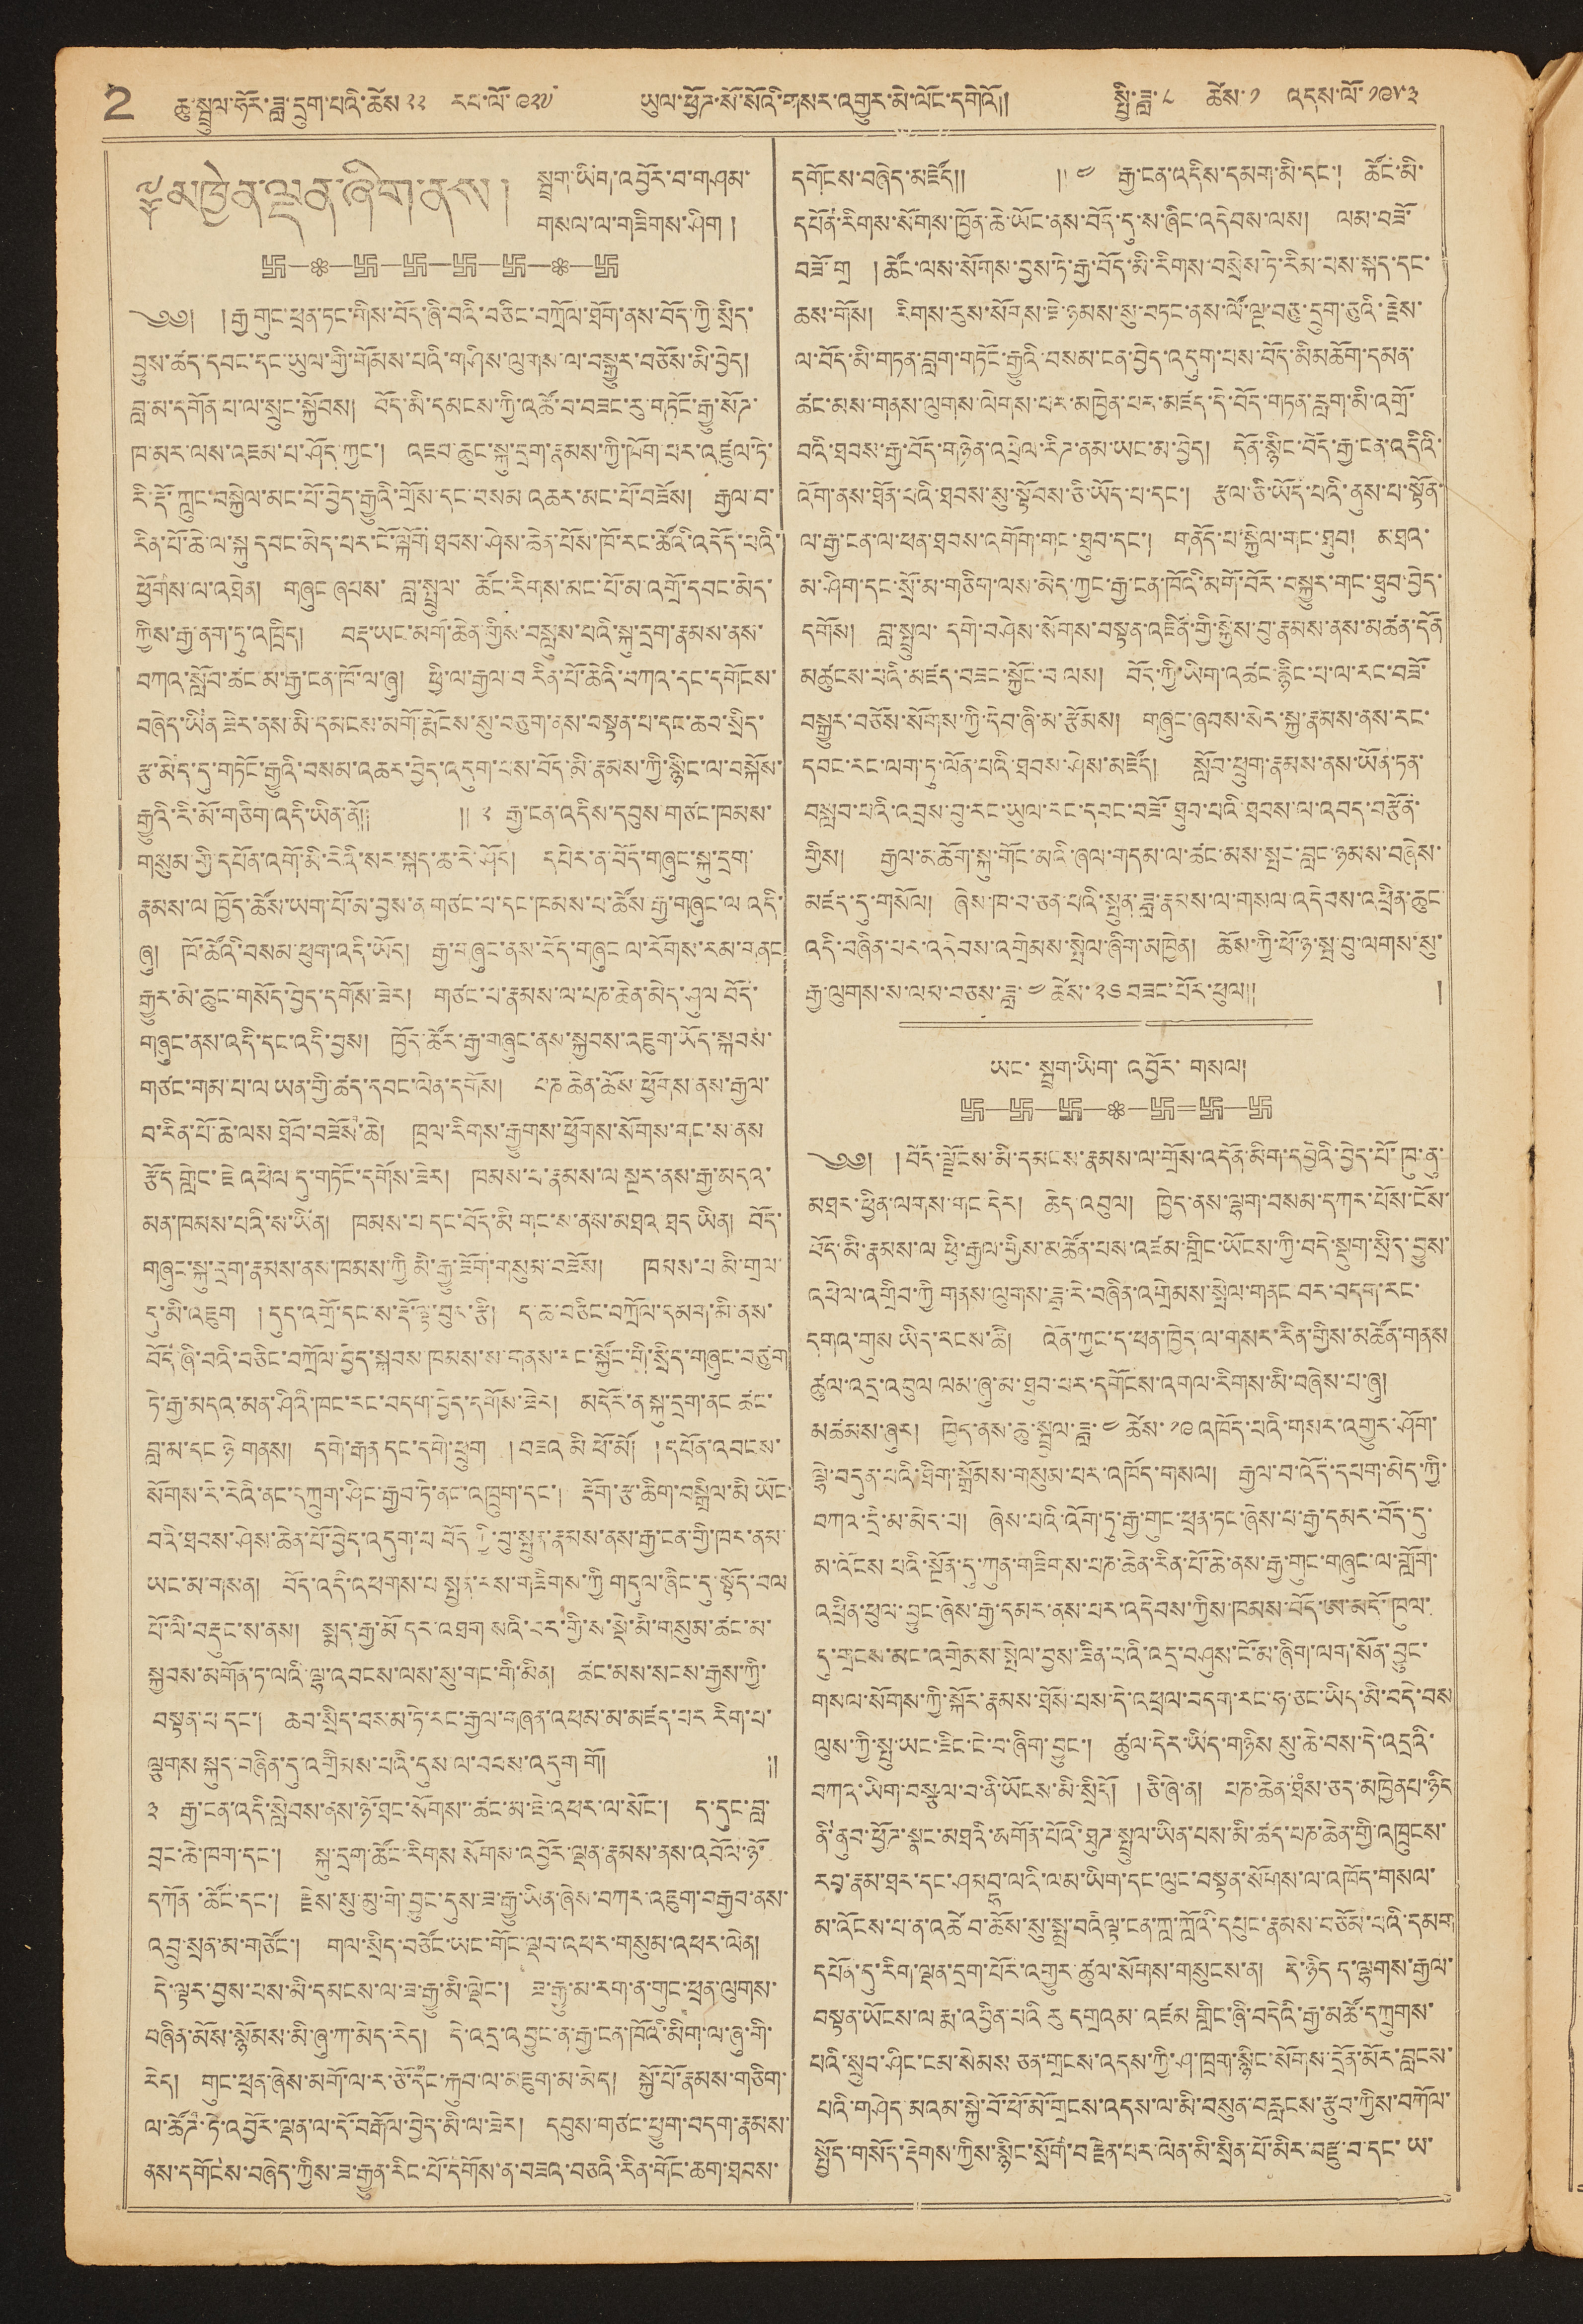2 ཆུ་སྤྲུལ་ཧོར་ཟླ་དྲུག་པའི་ཚེས་ ༢༢ རབ་ལོ་ ༩༢༧ ཡུལ་ཕྱོགས་སོ་སོའི་གསར་འགྱུར་མེ་ལོང་དགེའོ།། སྤྱི་ཟླ་༨ ཚེས་༡ འདས་ལོ་ ༡༩༥༣
༈ མཁྱེན་ལྡན་ཞིག་ནས།
སྦྲག་ཡིག་འབྱོར་བ་གཤམ་
གསལ་ལ་གཟིགས་ཤིག།།
༄༅།།རྒྱ་གུང་ཕྲན་ཏང་གིས་བོད་ཞི་བའི་བཅིང་བཀྲོལ་ཐོག་ནས་བོད་ཀྱི་སྲིད་
བྱུས་ཚད་དབང་དང་ཡུལ་གྱི་གོམས་པའི་གཤིས་ལུགས་ལ་བསྒྱུར་བཅོས་མི་བྱེད།
བླ་མ་དགོན་པ་ལ་སྲུང་སྐྱོབས། བོད་མི་དམངས་ཀྱི་འཚོ་བ་བཟང་རུ་གཏོང་རྒྱུ་སོཌ་
ཁ་མར་ལས་འཇམ་པ་ཤོད་ཀྱང་། འཇབ་ཆུང་སྐུ་དྲག་རྣམས་ཀྱི་ཁོག་པར་འཛུལ་ཏེ་
རི་རྡོ་ཀླུང་བསྐྱེལ་མང་པོ་བྱེད་རྒྱུའི་གྲོས་དང་བསམ འཆར་མང་པོ་བཟོས། རྒྱལ་བ་
རིན་པོ་ཆེ་ལ་སྐུ དབང་མེད་པའི་ངོ་ལྐོག ཐབས་ཤེས་ཆེན་པོས་ཁོ་རང་ཚོའི་འདོད་པའི་
ཕྱོགས་ལ་འཐེན། གཞུང ཞབས་བླ་སྤྲུལ་ཚོང་རོགས་མང་པོ་མ་འགྲོ་དབང་མེད་
ཀྱིས་རྒྱ་ནག་རུ་འཁྲིད། བརྡ་ཡང་མགོ་ཆེན་གྱིས་བསླུས་པའི་སྐུ་དྲག་རྣམས་ནས་
བཀའ་སློབ་ཚང་མ་རྒྱང་ཁོ་ལ་ཞུ། ཕྱི་ལ་རྒྱལ་བ་རིན་པོ་ཆེའི་བཀའ་དང་དགོངས་
བཞེད་ཡིན ཟེར་ནས་མི་དམངས་མགོ་རྨོངས་སུ་བཅུག་ནས་བསྟན་པ་དང་ཆབ་སྲིད་
རྩ་མེད་དུ་གཏོང་རྒྱུའི་བསམ་འཆར་བྱེད་འདུག་པས་བོད་མི་རྣམས་ཀྱི་སྙིང་ལ་བསྐོས་
རྒྱུའི་རི་མོ་གཅིག་འདི་ཡིན་ནོ།། །།༸རྒྱ་ངན་འདིས་དབུས་གཙང་ཁབས་
གསུམ་གྱི་དཔོན་འགོ་མི་རིའི་སར་སྐད་ཆ་རེ་ཤོར། དཔེར་ན་བོད་གཞུང་སྐུ་དྲག་
རྣམས་ལ ཁྱོད་ཆོས་ཡག་པོ་མ་བྱས་ན་གཙང་པ་དང་ཁམས་པ་ཚོས་རྒྱ་གཞུང་ལ་འདི་
ཞུ། ཁོ་ཚོའི་བསམ་ཕུག་འདི་ཡོད། རྒྱ་གཞུང་ནས་བོད་གཞུང ལ་རོགས་རམ་གནང
རྒྱུར་མེ་ཆུང་གསོད་བྱེད་དགོས་ཟེར། གཙང་པ་རྣམས་ལ་པན་ཆེན་མེད་ཤུལ བོད་
གཞུང་ནས་འདི་དང་འདི་བྱས། ཁྱོད་ཚོར་རྒྱ་གཞུང་ནས་སྐྱབས་འཇུག་ཡོད་སྐབས་
གཙང་གམ་པ་ལ ཡན་གྱི་ཚད་དབང་ལེན་དགོས། པཎ་ཆེན་ཆོས་ཕྱོགས་ནས་རྒྱལ་
བ་རིན་པོ་ཆེ་ལས ཐོབ་བཟོས་ཆེ། ཁྲལ་རིགས་རྒྱུགས་ཕྱོགས་སོགས་གང་ས་ནས་
རྩོད་གླེང་ཇེ འཕེལ དུ་གཏོང་དགོས་ཟེར། ཁམས་པ་རྣམས་ལ སྔར་ནས་རྒྱ་མདའ་
མན་ཁམས་པའི་ས་ཡིན། ཁམས་པ དང་བོད་མི གང་ས་ནས་མཐའ ཐད ཡིན། བོད་
གཞུང་སྐུ་དྲག་རྣམས་ནས་ཁམས་ཀྱི མི་རྒྱུ་ཟོག་གསུམ་བཟོས། །ཁམས་པ མི་གྲལ་
དུ་མི་འཇུག །དུད་འགྲོ་དང་ས་རྡོ་ལྟ་བུར་རྩི། ད་ཆ་བཅིང་བཀྲོལ་དམག་མི་ནས་
བོད་ཞི་བའི་བཅིང་བཀྲོལ་བྱེད་སྐབས་ཁམས་ས་གནས་རང་ཀྱོང་གི་སྲིད་གཞུང་བཙུག
ཏེ་རྒྱ་མདའ་མན་ཤིའི་ཁང་རང་བདག་བྱེད་དགོས་ཟེར། མདོར་ན་སྐུ་དྲག་ནང་ཚང་
བླ་མ་དང་ཉེ གནས། དགེ་རྒན་དང་དགེ་ཕྲུག །བཟའ མི ཕོ་མོ། །དཔོན་འབངས་
སོགས་རེ་རེའི་ནང་དཀྲུག་ཤིང་རྒྱབ་ཏེ་ནང་འཁྲུག་དང་། རྡོག་རྩ་ཚིག་བསྒྲིལ་མི་ཡོང་
པའི་ཐབས་ཤེས་ཆེན་པོ་བ་བྱེད་འདུག་པ་བོད་ཀྱི་བུ་སྤུན་རྣམས་ནས་རྒྱ་ངན་གྱི་ཁར་ནམ་
ཡང་མ་གསན། བོད་འདི་འཕགས་པ་སྤྱན་རས་གཟིགས་ཀྱི་གདུང་ཞིང་དུ་སྟོད་བལ
པོ་ལི་བརྡུང་ས་ནས། སྨད་རྒྱ་མོ དར་འཐག སའི་བར་གྱིས་སྡེ་མི་གསུམ་ཚང་མ་
སྐྱབས་མགོན་ཏ་ལའི་ལྷ་འབངས་ལས་སུ་གང་གི་མིན། ཚང་མས་སངས་རྒྱས་ཀྱི་
བསྟན་པ་དང་། ཆབ་སྲིད་བསམ་ཏེ་རང་རྒྱལ་གཞན་འཕམ་མ་མཛད་པར རིག་པ་
ལྕགས སྐུད་བཞིན་དུ་འགྲིམས་པའི་དུས་ལ་བབས་འདུག གོ། །།
༣ རྒྱ་ངན་འདི་སླེབས་ནས་ཉོ་ཐང་སོགས་ཚང་མ་ཇེ་འཕར་ལ་སོང་། ད་དུང་བླ་
བྲང་ཆེ་ཁག་དང་། སྐུ་དྲག་ཚོང་རོགས སོགས་འབྱོར་ལྡན་རྣམས་ནས་འབོལ་ཉོ་
དཀོན་ཚོང་དང་། རྗེས་སུ་མུ་གེ་བྱུང་དུས་ཟ་རྒྱུ་ཡིན་ཞེས་བཀར་འཇུག་བརྒྱག་ནས་
འབྲུ་སྲན་མ་གཙོང་། གལ་སྲིད་བཙོང་ཡང་གོང་ལྡབ་འཕར་གསུམ་འཕར་ལེན།
དེ་ལྟར་བྱས་པས་མི་དམངས་ལ་ཟ་རྒྱུ་མི་ལྡེང་། ཟ་རྒྱུ་མ་རག་ན་གུང་ཕྲན་ལུགས་
བཞིན་མོས་སྙོམས་མི་ཞུ་ཀ་མེད་རེད། དེ་འདྲ་འབྱུང་ན་རྒྱ་ངན་ཁོའི་མིག་ལ་ཞུ་གི་
རེད། གུང་ཕྲན་ཞེས་མགོ་ལ་ར་ཅོ་དང་རྐུབ་ལ་མཇུག་མ་མེད། སྐྱོ་པོ་རྣམས་གཅིག་
ལ་ཚོཌ་ཏེ་འབྱོར་ལྡན་ལ་དོ་བརྒོལ་བྱེད་མི་ལ་ཟེར། དབུས་གཙང་ཕྱུག་བདག་རྣམས་
ནས་དགོངས་བཞེད་ཀྱིས་ཟ་རྒྱུན་རིང་པོ་དགོས་ན་བཟའ་བཅའི་རིན་གོང་ཆག་ཐབས་
དགོངས་བཞེད་མཛོད།། །། ༤ རྒྱ་ངན་འདིས་དམག་མི་དང་། ཚོང་མི་
དཔོན་རིགས་སོགས་ཁྱོན་ཆེ་ཡོང་ནས་བོད་དུ་ས་ཞིང་འདེབས་ལས། ལམ་བཟོ་
བཟོ་གྲ །ཚོང་ལས་སོགས་བྱས་ཏེ་རྒྱ་བོད་རིགས་བསྲེས་ཏེ་རིམ་པས་སྐད་དང་
ཆས་གོས། རིགས་སུ་སོགས་ཇེ་ཉམས་སུ་བཏང་ནས་ལོ་ལྔ་བཅུ་དྲུག་ཅུའི་རྗེས་
ལ་བོད་མི་གཏན་བླག་གཏོང་རྒྱུའི་བསམ་ངན་བྱེད་འདུག་པས་བོད་མི མཆོག་དམན་
ཚང་མས་གནས་ལུགས་ལེགས་པར་མཁྱེན་པར་མཛད་དེ་བོད་གཏམ་རླག་མི་འགྲོ་
བའི་ཐབས་རྒྱ་བོད་གཉེན་འབྲེལ་རིཌ་ནམ་ཡང་མ་བྱེད། དོན་སྙིང་བོད་རྒྱ་ངན་འདིའི་
འོག་ནས་ཐོན་པའི་ཐབས་སུ་སྟོབས་ཅི་ཡོད་པ་དང་། རྩལ་ཅི་ཡོད་པའི་ནུས་ལ་སྟོན་
ལ་རྒྱ་ངན་ལ་ཕན་ཐབས་འགོག་གང་ཐུབ་དང་། གནོན་པ་སྐྱེལ་གང་ཐུབ། མཐའ་
མ་ཤིག་དང་སྲོ་མ་གཅིག་ལས་མེད་ཀྱང་རྒྱ་ངན་ཁོའི་མགོ་བོར་བསྐྱུར་གང་ཐུབ་བྱེད་
དགོས། བླ་སྤྲུལ་དགེ་བཤེས་སོགས་བསྟན་འཛིན་གྱི་སྐྱེས་བུ་རྣམས་ནས་མཚན་དོན་
མཚུངས་པའི་མཛད་བཟང་སྐྱོང་བ་ལས། བོད་ཀྱི་ཡིག་འཚང་རྙིང་པ་ལ་རང་བཟོ་
བསྒྱུར་བཅོས་སོགས་ཀྱི་དེབ་ཞི་མ་རྩོམས། གཞུང་ཞབས་སེར་སྐྱ་རྣམས་ནས་རང་
དབང་རང་ལག་ཏུ་ལོན་པའི་ཐབས་ཤེས་མཛོད། སློབ་ཕྲུག་རྣམས་ནས་ཡོན་ཏན་
བསླབ་པའི་འབྲས་བུ་རང་ཡུལ་རང་དབང་བཟོ་ཐུབ་པའི་ཐབས་ལ་འབད་བརྩོན་
གྱིས། རྒྱལ་མཆོག་སྐུ་གོང་མའི་ཞལ་གདན་ལ་ཚང་མས་སྤང་བླང་ཉམས་བཞེས་
མཛད་དུ་གསོལ། ཞེས་ཁ་བ་ཅན་པའི་སྤུན་ཟླ་རྣམས་ལ་གསལ་འདེབས་འཕྲིན་ཆུང་
འདི་བཞིན་པར་འདེབས་འགྲེམས་སྤེལ་ཞིག་མཁྱེན། ཆོས་ཀྱི་ཕོ་ཉ་སྤ་བུ་ལགས་སུ་
རྒྱ་ལུགས་ས་ལམ་བཅས་ཟླ་ ༤ ཚེས་ ༢༦ བཟང་པོར་ཕུལ།། །
ཡང་སྦྲག་ཡིག་འབྱོར་གསལ།
༄༅། །བོད་ལྗོངས་མི་དམངས་རྣམས་ལ་གྲོས་འདོན་མིག་དབྱེའི་བྱེད་པོ་ཁུ་ནུ་
མཐར་ཕྱིན་ལགས་གང་དེར། ཆེད་འབུལ། ཁྱེད་ནས་ལྷག་བསམ་དཀར་པོས་ངོས་
བོད་མི་རྣམས་ལ ཕྱི་རྒྱལ་གྱིས་མཚོན་པས་འཛམ་གླིང་ཡོངས་ཀྱི་བདེ་སྡུག་སྲིད་བྱུས་
འཕེལ་འགྲིབ་ཀྱི གནས་ལུགས་ཟླ་རེ་བཞིན་འགྲེམས་སྤེལ་གནང་བར་བདག་རང་
དགའ་གུས ཡིད་རངས་ཆཻ། འོན་ཀྱང་ད་ཕན་ཁྱེད་ལ་གསར་རིན་གྱིས་མཚོན་གནས
ཚུལ་འདྲ་འབུལ ལམ་ཞུ་མ་ཐུབ་པར་དགོངས་འགལ་རིགས་མི་བཞེས་པ་ཞུ།
མཚམས་ཞུར། ཁྱེད་ནས་ཆུ་སྦྲལ་ཟླ་ ༤ ཚེས་ ༡༩ འཁོད་པའི་གསར་འགྱུར་ཤོག་
ལྷེ་བདུན་པའི་ཐིག་སྒྲོམས་གསུམ་པར་འཁོད་གསལ། རྒྱལ་བ་འོད་དཔག་མེད་ཀྱི་
བཀའ་དྲི་མ་མེད་པ། ཞེས་པའི་འོག་ཏུ་རྒྱ་གུང་ཕྲན་ཏང་ཞེས་རྒྱ་དམག་བོད་དུ་
མ་འོངས པའི་སྔོན་དུ་ཀུན་གཟིགས་པཎ་ཆེན་རིན་པོ་ཆེ་ནས་རྒྱ་གུང་གཞུང་ལ་གློག་
འཕྲིན་ཕུལ་བྱུང་ཞེས་རྒྱ་དམར་ནས་པར་འདེབས་ཀྱིས་ཁམས་བོད་ཨ་མདོ་ཁུལ་
དུ་གྲངས་མང་འགྲེམས་སྤེལ་བྱས་ཟིན་པའི་འདྲ་བཤུས་ངོ་མ་ཞིག་ལག་སོན་བྱུང་
གསལ་སོགས་ཀྱི་སྐོར་རྣམས་ཐོས་པས་དེ་འཕྲལ་བདག་རང་ཧ་ཅང་ཡིད་མི་བདེ་བས
ལུས་ཀྱི་སྤུ་ཡང་ཟིང་ངེ་བ་ཞིག་བྱུང་། ཚུལ་དེར་ཡིད་གཉིས སུ་ཆེ་བས་དེ་འདྲའི་
བཀའ་ཡིག་བསྩལ་བ་ནི་ཡོངས་མི་སྲིདོ། །ཅེ་ཞེ་ན། པཎ་ཆེན་ཐཾས་ཅད་མཁྱེན པ་ཉིད
ནི་ནུབ་ཕྱོཌ་སྣང་མཐའི་མགོན་པོའི་ཐུཌ་སྤྲུལ་ཡིན་པས་མི་ཚད་པཎ་ཆེན་གྱི་འཁྲུངས་
རབ་རྣམ་ཐར་དང་ཤམ་བྷ་ལའི་ལམ་ཡིག་དང་ལུང་བསྟན་སོགས་ལ་འཁོད་གསལ་
མ་འོངས་པ་ན་འཚེ བ་ཆོས་སུ་སྨྲ་བའི ལྟ་ངན་ཀླ་ཀླའོ་དཔུང་རྣམས་བཅོམ་པའི་དཔག
དཔོན་དུ་རིག་ལྡན་དྲག་པོར་འགྱུར་ཚུལ་སོགས་གསུངས་ན། དེ་ཉིད་ད་ལྷགས་རྒྱལ་
བསྟན་ཡོངས་ལ རྨ་འབྱིན་པའི རུ དགྲ འམ་འཛམ གླིང་ཞེ་བདེའི་རྒྱ་མཚོ་དཀྲུགས་
པའི་སྲུབ་ཤིང་ངམ་སེམས ཅན་གྲངས་འདས་ཀྱི་ཤ་ཁྲག་སྙིང་སོགས་དྲོན་མོར་བླངས་
པའི་གཤེད་མའམ་སྐྱེ་བོ་ཕོ་མོ་གྲངས་འདས་ལ་མི་བསུན་བརླངས་རྩུབ་ཀྱིས་བཀོལ་
སྤྱོད་གསོད་རྡེགས་ཀྱིས་སྙིང་སྲོག་བརྗེད་པར་ལེན་མི་སྲིན་པོ་མིར་བརྫུ་བ་དང་ཡ་
